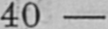40
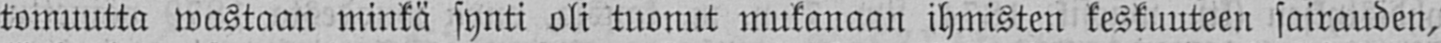tomuutta wastaan minkä synti oli tuonut mukanaan ihmisten keskuuteen sairauden,
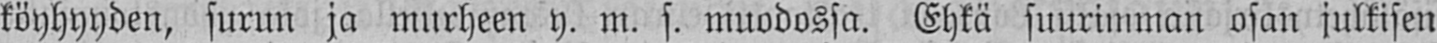köyhyyden, surun ja murheen y. m. s. muodossa. Ehkä suurimman osan julkisen
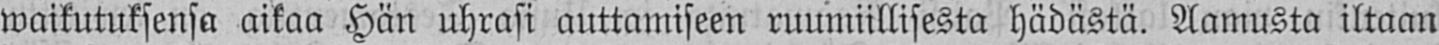waikutuksensa aikaa Hän uhrasi auttamiseen ruumiillisesta hädästä. Aamusta iltaan
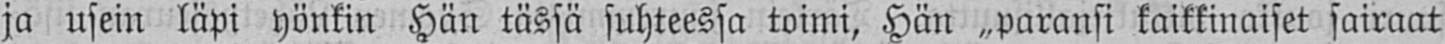ja usein läpi yönkin Hän tässä suhteessa toimi, Hän „paransi kaikkinaiset sairaat
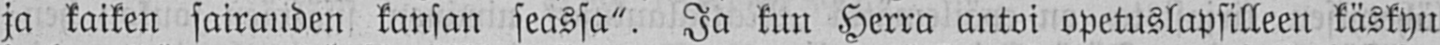ja kaiken sairauden kansan seassa". Ja kun Herra antoi opetuslapsilleen käskyn
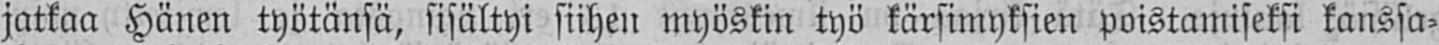jatkaa Hänen työtänsä, sisältyi siihen myöskin työ kärsimyksien poistamiseksi kanssa-
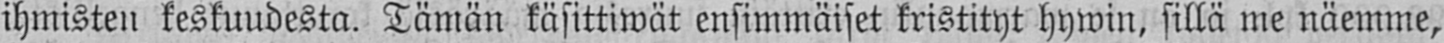ihmisten keskuudesta. Tämän käsittiwät ensimmäiset kristityt hywin, sillä me näemme,
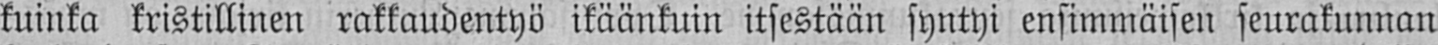kuinka kristillinen rakkaudentyö ikäänkuin itsestään syntyi ensimmäisen seurakunnan
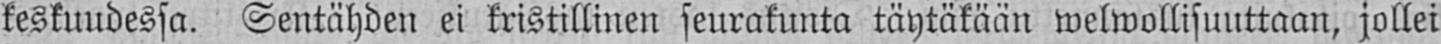keskuudessa. Sentähden ei kristillinen seurakunta täytäkään welwollisuuttaan, jollei
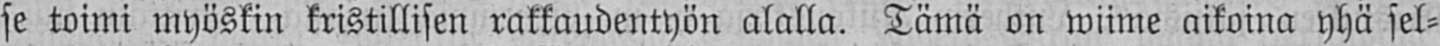se toimi myöskin kristillisen rakkaudentyön alalla. Tämä on wiime aikoina yhä sel-
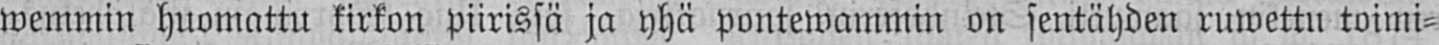wemmin huomattu kirkon piirissä ja yhä pontewammin on sentähden ruwettu toimi-
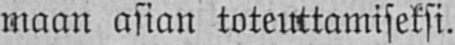maan asian toteuttamiseksi.
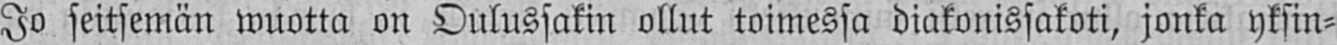Jo seitsemän wuotta on Oulussakin ollut toimessa diakonissakoti, jonka yksin-
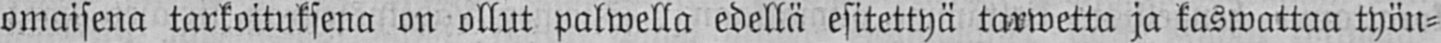omaisena tarkoituksena on ollut palwella edellä esitettyä tarwetta ja kaswattaa työn-
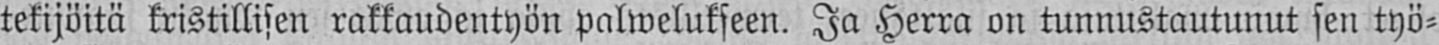tekijöitä kristillisen rakkaudentyön palwelukseen. Ja Herra on tunnustautunut sen työ-
